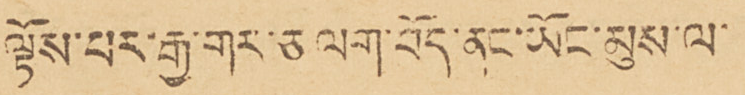ལྟོས་པར་རྒྱ་གར་ཅ ལག་བོད་ནང་ཡོང་མུས་ལ་
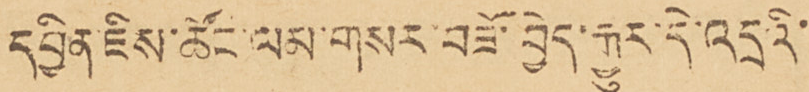དབྱིན་ཇིས་ཚོང་ལམ་གསར་བཟོ་བྱེད་རྒྱུར་དེ་འདྲའི་
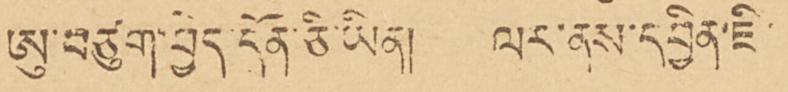ཨུ་བཙུག་བྱེད་དོན་ཅི་ཡིན། ལར་ནས་དབྱིན་ཇི་
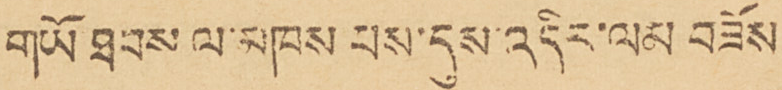གཡོ ཐབས ལ་མཁས པས་དུས་འདིར་ལམ བཟོས
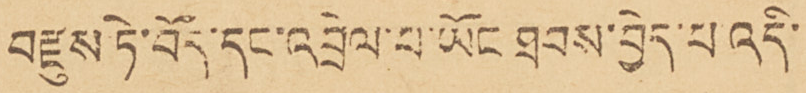བརྫུས་ཏེ་བོད་དང་འབྲེལ་པ་ཡོང ཐབས་བྱེད་པ་འདི་
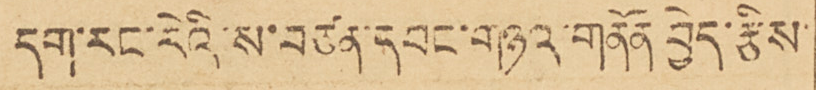དག་རང་རེའི་ས་བཙན་དབང་གཉའ་གནོན བྱེད་རྩིས་
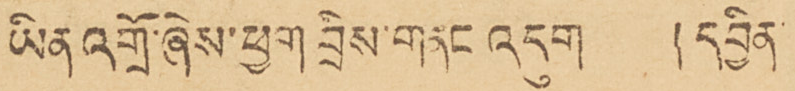ཡིན འགྲོ་ཞེས་ཕྱག བྲིས་གནང འདུག །དབྱིན་
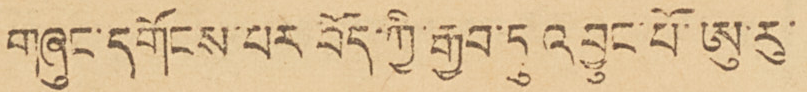གཞུང་དགོངས་པར བོད་ཀྱི་རྒྱབ་དུ འབྱུང་པོ་ཨུ་རུ་
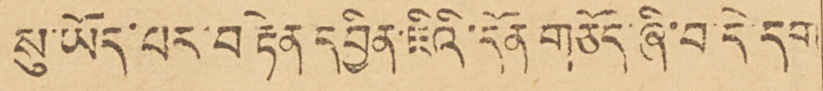སུ་ཡོད་པར་བརྟེན དབྱིན་ཇིའི་དོན གཅོད་ཞི་བ་དེ་དག
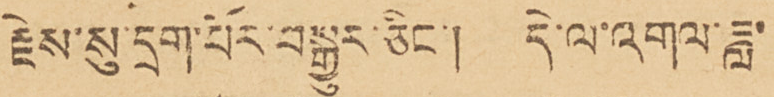རྗེས་སུ་དྲག་པོར་བསྒྱུར་ཅིང་། དེ་ལ་འགལ་ཟླ་
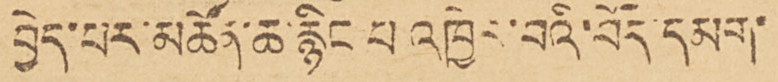བྱེད་པར་མཚོན་ཆ་རྙིང པ འཁྱེར་བའི་བོད་དམག་
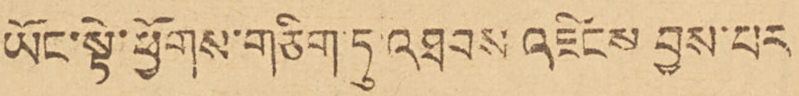ཡོང་སྟེ་ཕྱོགས་གཅིག་ཏུ་འཐབས འཛིངས བྱས་པར
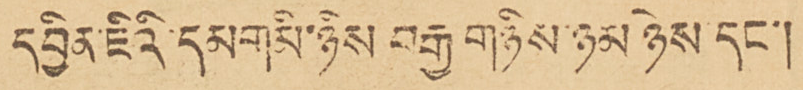དབྱིན་ཇིའི་དམག མི་ཉིས བརྒྱ གཉིས་ཉམ ཉེས་དང་།
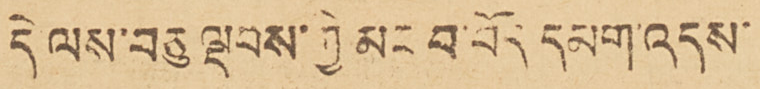དེ ལས་བཅུ ལྡབས་ཀྱི མང བ་བོད དམག་འདས་
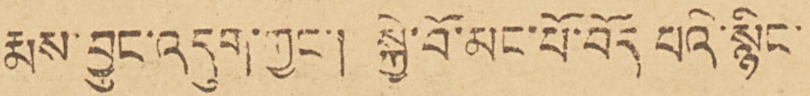རྨས་བྱུང་འདུག་ཀྱང་། སྐྱེ་བོ་མང་པོ་བོད པའི་སྙིང་
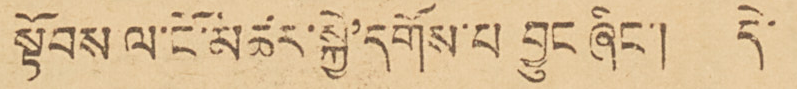སྟོབས ལ་ངོ་མཚར་སྐྱེ་དགོས་པ བྱུང ཞིང་། དེ་
